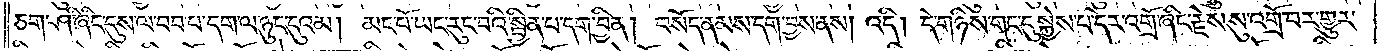ཅག་ཤི་ཞིང་དུས་ལ་བབ་པ་དག་ལ་ཉུང་དུའམ། མང་པོ་ཡང་རུང་བའི་སྦྱིན་པ་དག་བྱིན། བསོད་ནམས་དག་བྱས་ནས། འདི། དེ་གཉིས་གང་དུ་སྐྱེས་པ་དེར་འགྲོ་ཞིང་རྗེས་སུ་འགྲོ་བར་གྱུར་
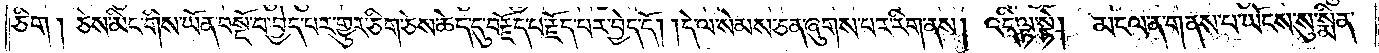ཅིག། ཅེས་མིང་གིས་ཡོན་བསྔོ་བ་བྱེད་པར་གྱུར་ཅིག་ཅེས་ཆེད་དུ་བརྗོད་པ་རྗོད་པར་བྱེད་དོ། །དེ་ལ་སེམས་ཅན་ཞུགས་པར་རིག་ནས། འདི་ལྟ་སྟེ། མངལ་ན་གནས་པ་ཡོངས་སུ་སྨིན་
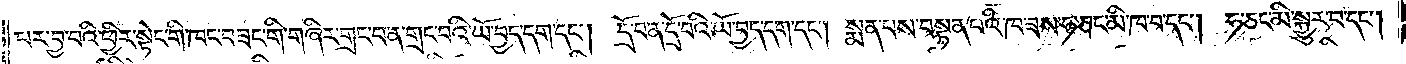པར་བྱ་བའི་ཕྱིར་སྟེང་གི་ཁང་བཟང་གི་གཞིར་གྲང་བ་ན་གྲང་བའི་ཡོ་བྱད་དག་དང༌། དྲོ་བ་ན་དྲོ་བའི་ཡོ་བྱད་དག་དང༌། སྨན་པས་བསྟན་པའི་ཁ་ཟས་ཧ་ཅང་མི་ཁ་བ་དང༌། ཧ་ཅང་མི་སྐྱུར་བ་དང༌།
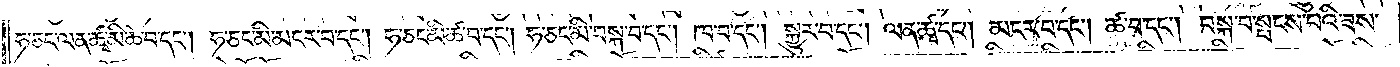ཧ་ཅང་ལན་ཚྭ་མི་ཆེ་བ་དང༌། ཧ་ཅང་མི་མངར་བ་དང༌། ཧ་ཅང་མི་ཚ་བ་དང༌། ཧ་ཅང་མི་བསྐ་བ་དང༌། ཁ་བ་དང༌། སྐྱུར་བ་དང༌། ལན་ཚྭ་དང༌། མངར་བ་དང༌། ཚ་བ་དང༌། བསྐ་བ་སྤངས་པའི་ཟས་
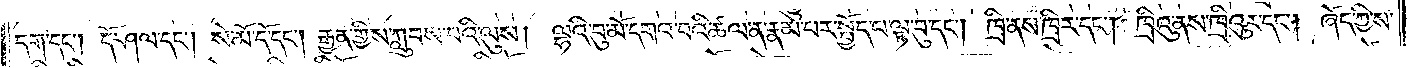དག་དང༌། དོ་ཤལ་དང༌། སེ་མོ་དོ་དང༌། རྒྱན་གྱིས་ཀླུབས་པའི་ལུས། ལྷའི་བུ་མོ་དགའ་བའི་ཚལ་ན་རྣམ་པར་སྤྱོད་པ་ལྟ་བུ་དང༌། ཁྲི་ནས་ཁྲིར་དང༌། ཁྲིའུ་ནས་ཁྲིའུར་དང༌། ཞོད་ཀྱིས་
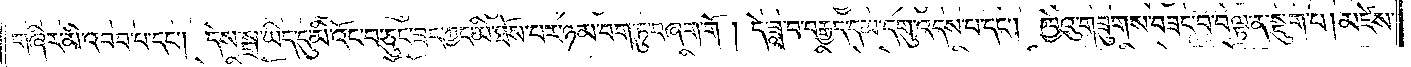གཞིར་མི་འབབ་པ་དང༌། དེས་སྒྲ་ཡིད་དུ་མི་འོང་བ་ཅུང་ཟད་ཀྱང་མི་ཐོས་པར་ཉམ་བག་ཏུ་བཞག་གོ། དེ་ཟླ་བ་བརྒྱད་དམ་དགུ་འདས་པ་དང༌། ཁྱེའུ་གཟུགས་བཟང་བ་བལྟ་ན་སྡུག་པ། མཛེས་
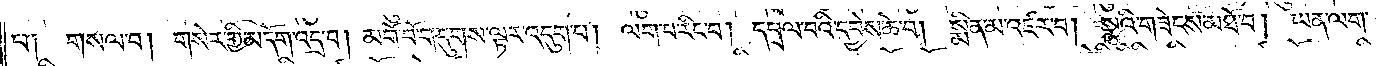པ༑ གསལ་བ། གསེར་གྱི་མདོག་འདྲ་བ། མགོ་བོ་གདུགས་ལྟར་འདུག་པ། ལག་པ་རིང་བ། དཔྲལ་བའི་དབྱེས་ཆེ་བ། སྨིན་མ་འཛར་བ། སྣའི་གཟེངས་མཐོ་བ། ཡན་ལག་
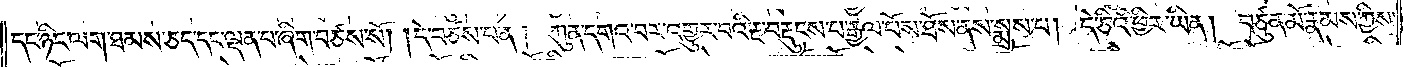དང་ཉིང་ལག་ཐམས་ཅད་དང་ལྡན་པ་ཞིག་བཙས་སོ། །དེ་བཙས་པ་ན། ཀུན་དགའ་བར་འགྱུར་བའི་རྔ་བརྡུངས་བ་རྒྱལ་པོས་ཐོས་ནས་སྨྲས་པ། དེ་ཅིའི་ཕྱིར་ཡིན། བཙུན་མོ་རྣམས་ཀྱིས་
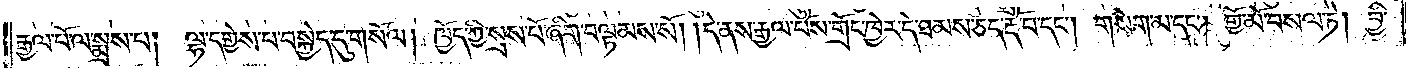རྒྱལ་པོ་ལ་སྨྲས་པ། ལྷ་དགྱེས་པ་བསྐྱེད་དུ་གསོལ། ཁྱོད་ཀྱི་སྲས་པོ་ཞིག་བལྟམས་སོ། །དེ་ནས་རྒྱལ་པོས་གྲོང་ཁྱེར་དེ་ཐམས་ཅད་རྡོ་བ་དང༌། གསེག་མ་དང༌། གྱོ་མོ་བསལ་ཏེ། བྱི་
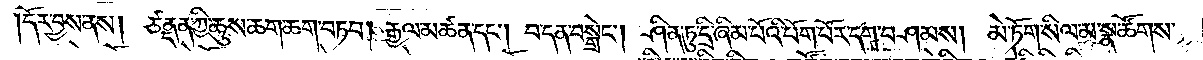དོར་བྱས་ནས། ཙནྡན་གྱི་ཆུས་ཆག་ཆག་བཏབ། རྒྱལ་མཚན་དང༌། བ་དན་བསྒྲེང༌། ཤིན་ཏུ་དྲི་ཞིམ་པོའི་པོག་པོར་དག་བཤམས།  མེ་ཏོག་སིལ་མ་སྣ་ཚོགས་
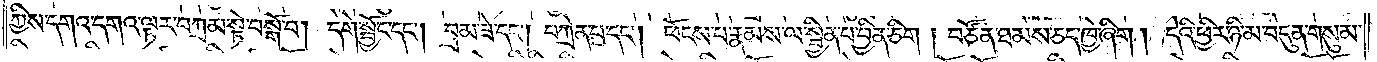ཀྱིས་དགའ་དགའ་ལྟར་བཀྲམ་སྟེ་བསྒོ་བ། དགེ་སྦྱོང་དང༌། བྲམ་ཟེ་དང༌། བཀྲེན་པ་དང༌། ཕོངས་པ་རྣམས་ལ་སྦྱིན་པ་བྱིན་ཅིག། བཙོན་ཐམས་ཅད་ཁྱེ་ཞིག། དེའི་ཕྱིར་ཉི་མ་བདུན་གསུམ་
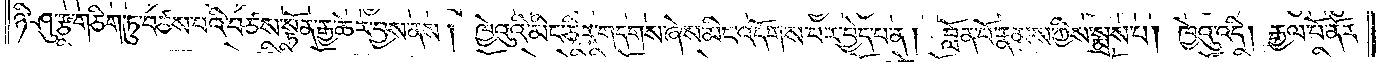ཉི་ཤུ་རྩ་གཅིག་ཏུ་བཙས་པའི་བཙས་སྟོན་རྒྱ་ཆེར་བྱས་ནས། ཁྱེའུའི་མིང་ཅིར་གདགས་ཞེས་མིང་འདོགས་པར་བྱེད་པ་ན། བློན་པོ་རྣམས་ཀྱིས་སྨྲས་པ། ཁྱེའུ་འདི། རྒྱལ་པོ་ནོར་
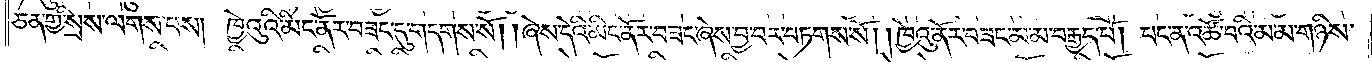ཅན་གྱི་སྲས་ལགས་པས། ཁྱེའུའི་མིང་ནོར་བཟང་དུ་གདགས་སོ། །ཞེས་དེའི་མིང་ནོར་བཟང་ཞེས་བྱ་བར་བཏགས་སོ། །ཁྱེའུ་ནོར་བཟང་མ་མ་བརྒྱད་པོ། པང་ན་འཚོ་བའི་མ་མ་གཉིས་
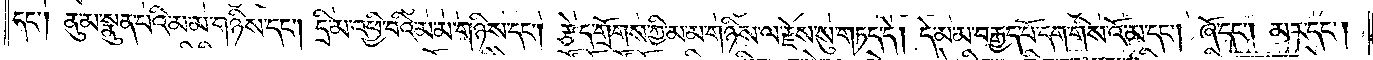དང༌། ནུ་མ་སྣུན་པའི་མ་མ་གཉིས་དང༌། དྲི་མ་འཕྱི་བའི་མ་མ་གཉིས་དང༌། རྩེད་གྲོགས་ཀྱི་མ་མ་གཉིས་ལ་རྗེས་སུ་གཏད་དེ། དེ་མ་མ་བརྒྱད་པོ་དག་གིས་འོ་མ་དང༌། ཞོ་དང༌། མར་དང༌།
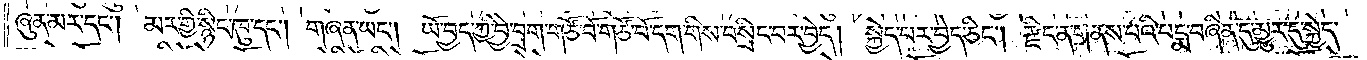ཞུན་མར་དང༌། མར་གྱི་སྙིང་ཁུ་དང༌། གཞན་ཡང༌། ཡོ་བྱད་ཀྱི་བྱེ་བྲག་གཙོ་བོ་གཙོ་བོ་དག་གིས་བསྲིང་བར་བྱེད། སྐྱེད་པར་བྱེད་ཅིང༌། རྫིང་ན་གནས་པའི་པདྨ་བཞིན་དུ་མྱུར་དུ་སྐྱེད་
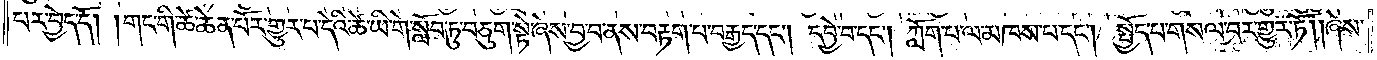པར་བྱེད་དོ། །གང་གི་ཚེ་ཆེན་པོར་གྱུར་པ་དེའི་ཚེ་ཡི་གེ་སློབ་ཏུ་བཅུག་སྟེ་ཞེས་བྱ་བ་ནས་བརྟག་པ་བརྒྱད་དང༌། དབྱེ་བ་དང༌། ཀློག་པ་ལ་མཁས་པ་དང༌། སྤྱོད་པ་གསལ་བར་གྱུར་ཏོ། །ཞེས་
